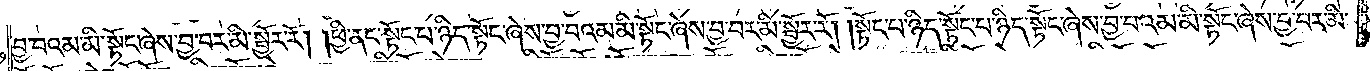བྱ་བའམ་མི་སྟོང་ཞེས་བྱ་བར་མི་སྦྱོར་རོ། །ཕྱི་ནང་སྟོང་པ་ཉིད་སྟོང་ཞེས་བྱ་བའམ་མི་སྟོང་ཞེས་བྱ་བར་མི་སྦྱོར་རོ། །སྟོང་པ་ཉིད་སྟོང་པ་ཉིད་སྟོང་ཞེས་བྱ་བའམ་མི་སྟོང་ཞེས་བྱ་བར་མི་
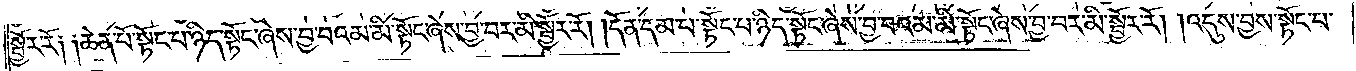སྦྱོར་རོ། །ཆེན་པོ་སྟོང་པ་ཉིད་སྟོང་ཞེས་བྱ་བའམ་མི་སྟོང་ཞེས་བྱ་བར་མི་སྦྱོར་རོ། །དོན་དམ་པ་སྟོང་པ་ཉིད་སྟོང་ཞེས་བྱ་བའམ་མི་སྟོང་ཞེས་བྱ་བར་མི་སྦྱོར་རོ། །འདུས་བྱས་སྟོང་པ་
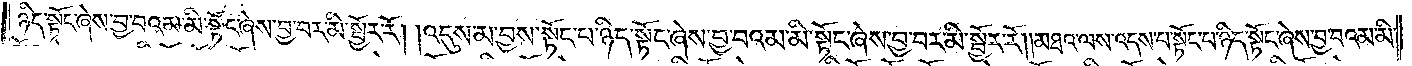ཉིད་སྟོང་ཞེས་བྱ་བའམ་མི་སྟོང་ཞེས་བྱ་བར་མི་སྦྱོར་རོ། །འདུས་མ་བྱས་སྟོང་པ་ཉིད་སྟོང་ཞེས་བྱ་བའམ་མི་སྟོང་ཞེས་བྱ་བར་མི་སྦྱོར་རོ། །མཐའ་ལས་འདས་པ་སྟོང་པ་ཉིད་སྟོང་ཞེས་བྱ་བའམ་མི་
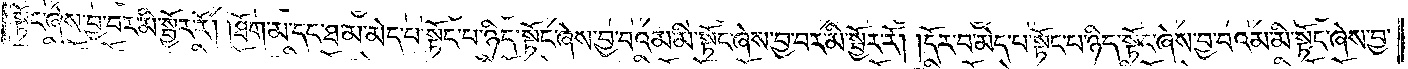སྟོང་ཞེས་བྱ་བར་མི་སྦྱོར་རོ། །ཐོག་མ་དང་ཐ་མ་མེད་པ་སྟོང་པ་ཉིད་སྟོང་ཞེས་བྱ་བའམ་མི་སྟོང་ཞེས་བྱ་བར་མི་སྦྱོར་རོ། །དོར་བ་མེད་པ་སྟོང་པ་ཉིད་སྟོང་ཞེས་བྱ་བའམ་མི་སྟོང་ཞེས་བྱ་
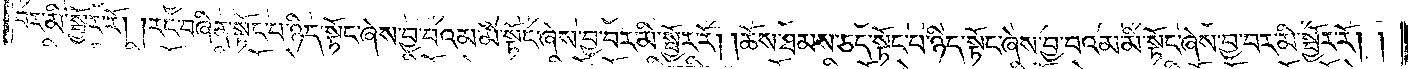པར་མི་སྦྱོར་རོ། །རང་བཞིན་སྟོང་པ་ཉིད་སྟོང་ཞེས་བྱ་བའམ་མི་སྟོང་ཞེས་བྱ་བར་མི་སྦྱོར་རོ། །ཆོས་ཐམས་ཅད་སྟོང་པ་ཉིད་སྟོང་ཞེས་བྱ་བའམ་མི་སྟོང་ཞེས་བྱ་བར་མི་སྦྱོར་རོ། །
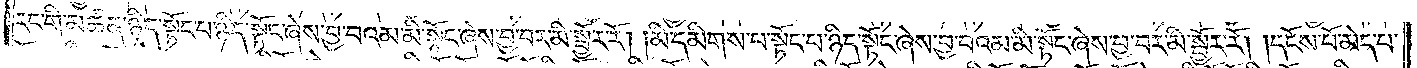རང་གི་མཚན་ཉིད་སྟོང་པ་ཉིད་སྟོང་ཞེས་བྱ་བའམ་མི་སྟོང་ཞེས་བྱ་བར་མི་སྦྱོར་རོ། །མི་དམིགས་པ་སྟོང་པ་ཉིད་སྟོང་ཞེས་བྱ་བའམ་མི་སྟོང་ཞེས་བྱ་བར་མི་སྦྱོར་རོ། །དངོས་པོ་མེད་པ་
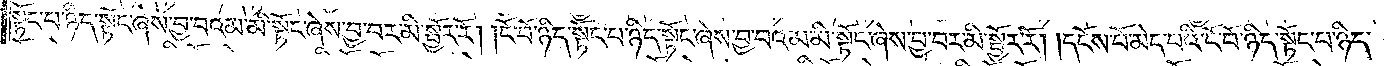སྟོང་པ་ཉིད་སྟོང་ཞེས་བྱ་བའམ་མི་སྟོང་ཞེས་བྱ་བར་མི་སྦྱོར་རོ། །ངོ་བོ་ཉིད་སྟོང་པ་ཉིད་སྟོང་ཞེས་བྱ་བའམ་མི་སྟོང་ཞེས་བྱ་བར་མི་སྦྱོར་རོ། །དངོས་པོ་མེད་པའི་ངོ་བོ་ཉིད་སྟོང་པ་ཉིད་
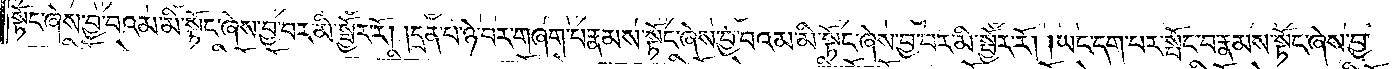སྟོང་ཞེས་བྱ་བའམ་མི་སྟོང་ཞེས་བྱ་བར་མི་སྦྱོར་རོ། །དྲན་པ་ཉེ་བར་གཞག་པ་རྣམས་སྟོང་ཞེས་བྱ་བའམ་མི་སྟོང་ཞེས་བྱ་བར་མི་སྦྱོར་རོ། །ཡང་དག་པར་སྤོང་བ་རྣམས་སྟོང་ཞེས་བྱ་
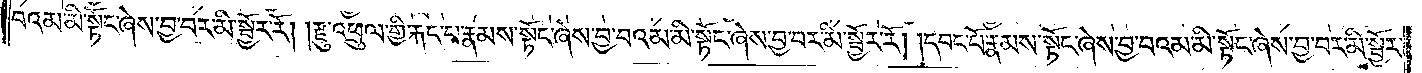བའམ་མི་སྟོང་ཞེས་བྱ་བར་མི་སྦྱོར་རོ། །རྫུ་འཕྲུལ་གྱི་རྐང་པ་རྣམས་སྟོང་ཞེས་བྱ་བའམ་མི་སྟོང་ཞེས་བྱ་བར་མི་སྦྱོར་རོ། །དབང་པོ་རྣམས་སྟོང་ཞེས་བྱ་བའམ་མི་སྟོང་ཞེས་བྱ་བར་མི་སྦྱོར་
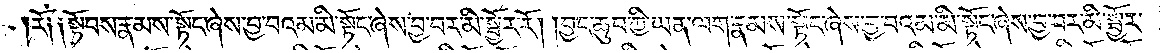རོ༑ ༑སྟོབས་རྣམས་སྟོང་ཞེས་བྱ་བའམ་མི་སྟོང་ཞེས་བྱ་བར་མི་སྦྱོར་རོ། །བྱང་ཆུབ་ཀྱི་ཡན་ལག་རྣམས་སྟོང་ཞེས་བྱ་བའམ་མི་སྟོང་ཞེས་བྱ་བར་མི་སྦྱོར་
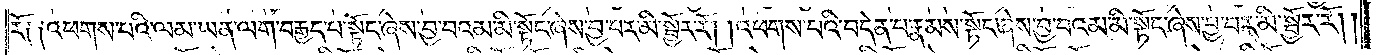རོ༑ ༑འཕགས་པའི་ལམ་ཡན་ལག་བརྒྱད་པ་སྟོང་ཞེས་བྱ་བའམ་མི་སྟོང་ཞེས་བྱ་བར་མི་སྦྱོར་རོ། །འཕགས་པའི་བདེན་པ་རྣམས་སྟོང་ཞེས་བྱ་བའམ་མི་སྟོང་ཞེས་བྱ་བར་མི་སྦྱོར་རོ། །
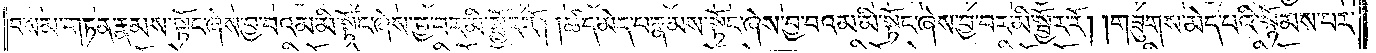བསམ་གཏན་རྣམས་སྟོང་ཞེས་བྱ་བའམ་མི་སྟོང་ཞེས་བྱ་བར་མི་སྦྱོར་རོ། །ཚད་མེད་པ་རྣམས་སྟོང་ཞེས་བྱ་བའམ་མི་སྟོང་ཞེས་བྱ་བར་མི་སྦྱོར་རོ། །གཟུགས་མེད་པའི་སྙོམས་པར་
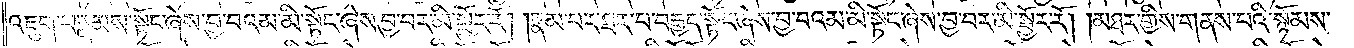འཇུག་པ་རྣམས་སྟོང་ཞེས་བྱ་བའམ་མི་སྟོང་ཞེས་བྱ་བར་མི་སྦྱོར་རོ། །རྣམ་པར་ཐར་པ་བརྒྱད་སྟོང་ཞེས་བྱ་བའམ་མི་སྟོང་ཞེས་བྱ་བར་མི་སྦྱོར་རོ། །མཐར་གྱིས་གནས་པའི་སྙོམས་
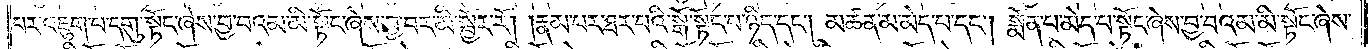པར་འཇུག་པ་དགུ་སྟོང་ཞེས་བྱ་བའམ་མི་སྟོང་ཞེས་བྱ་བར་མི་སྦྱོར་རོ། །རྣམ་པར་ཐར་པའི་སྒོ་སྟོང་པ་ཉིད་དང༌། མཚན་མ་མེད་པ་དང༌། སྨོན་པ་མེད་པ་སྟོང་ཞེས་བྱ་བའམ་མི་སྟོང་ཞེས་
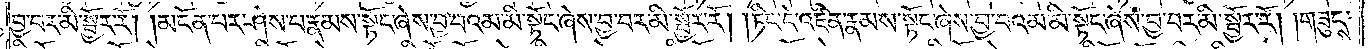བྱ་བར་མི་སྦྱོར་རོ། །མངོན་པར་ཤེས་པ་རྣམས་སྟོང་ཞེས་བྱ་བའམ་མི་སྟོང་ཞེས་བྱ་བར་མི་སྦྱོར་རོ། །ཏིང་ངེ་འཛིན་རྣམས་སྟོང་ཞེས་བྱ་བའམ་མི་སྟོང་ཞེས་བྱ་བར་མི་སྦྱོར་རོ། །གཟུངས་
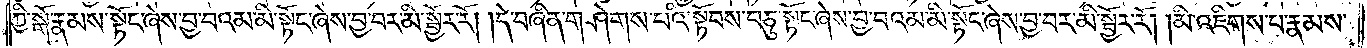ཀྱི་སྒོ་རྣམས་སྟོང་ཞེས་བྱ་བའམ་མི་སྟོང་ཞེས་བྱ་བར་མི་སྦྱོར་རོ། །དེ་བཞིན་གཤེགས་པའི་སྟོབས་བཅུ་སྟོང་ཞེས་བྱ་བའམ་མི་སྟོང་ཞེས་བྱ་བར་མི་སྦྱོར་རོ། །མི་འཇིགས་པ་རྣམས་
